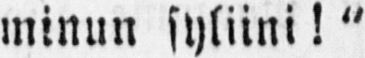minun syliini!"
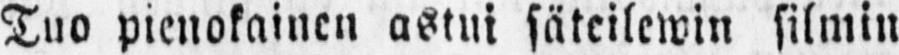Tuo pienokainen astui säteilewin silmin
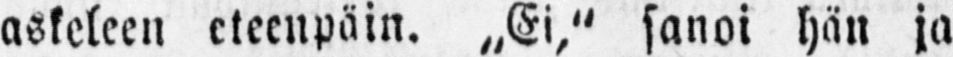askeleen eteenpäin. „Ei," sanoi hän ja
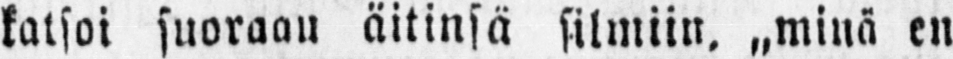katsoi suoraau äitinsä silmiin. „minä en
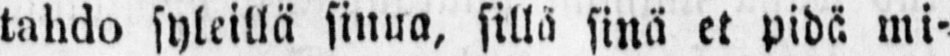tahdo syleillä sinua, sillä sinä et pidä mi-
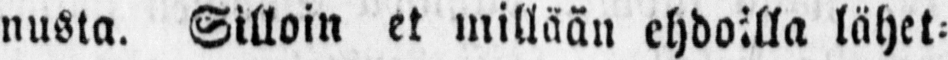nusta. Silloin et millään ehdoilla lähet-
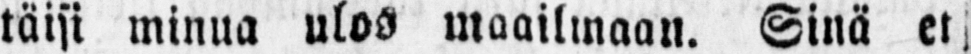täisi minua ulos maailmaan. Sinä et,
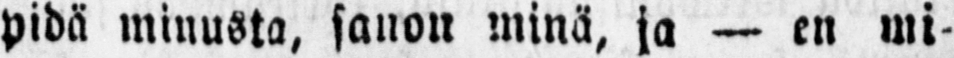pidä minusta, sanon minä, ja — en mi-
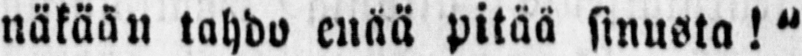näkään tahdo enää pitää sinusta!"
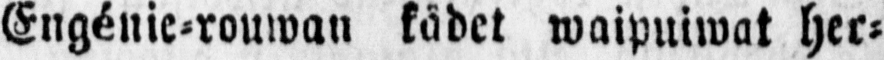Engénie-rouwan kädet waipuiwat her-
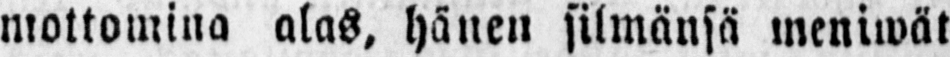mottomina alas, hänen silmänsä meniwät
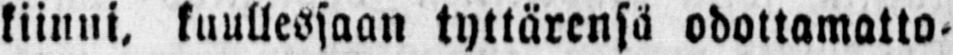kiinni, kuullessaan tyttärensä odottamatto-
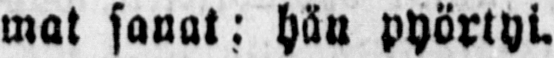mat sanat: hän pyörtyi.
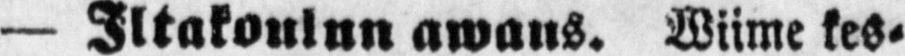— Iltakoulun awaus. Wiime kes-
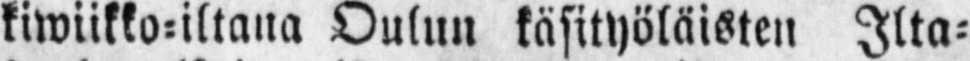kiwiikko-iltana Oulun käsityöläisten Ilta-
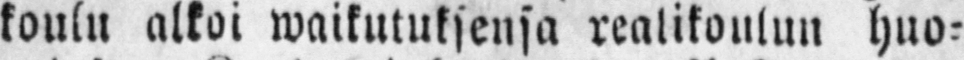koulu alkoi waikutuksensa realikoulun huo-
